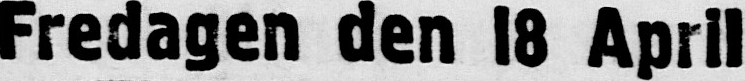Fredagen den 18 April
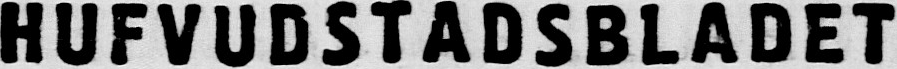HUFVUDSTADSBLADET
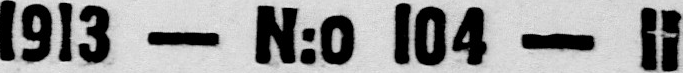1913 — N:o 104 — 11
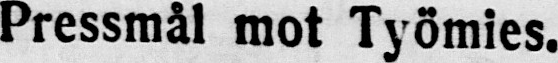Pressmål mot Työmies.
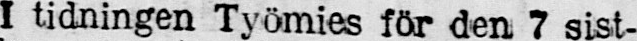I tidningen Työmies för den 7 sist-
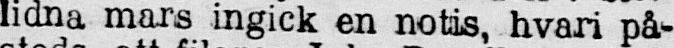lidna mars ingick en notis, hvari på-
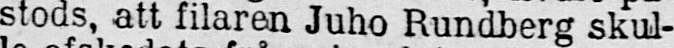stods, att filaren Juho Rundberg skul-
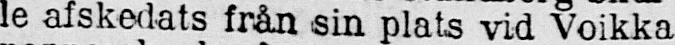le afskedats från sin plats vid Voikka
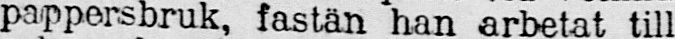pappersbruk, fastän han arbetat till
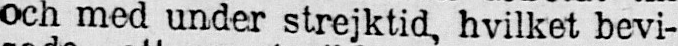och med under strejktid, hvilket bevi-
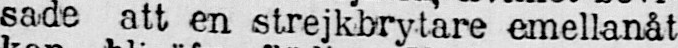sade att en strejkbrytare emellanåt
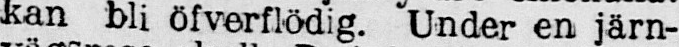kan bli öfverflödig. Under en järn-
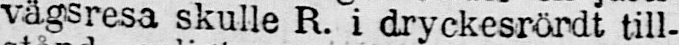vägsresa skulle R. i dryckesrördt till-
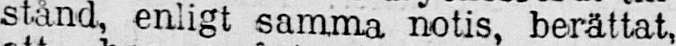stånd, enligt samma notis, berättat,
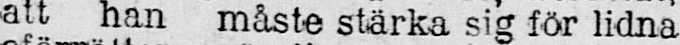att han måste stärka sig för lidna
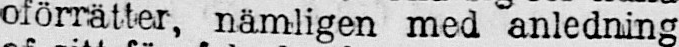oförrätter, nämligen med anledning
